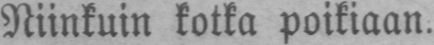Niinkuin kotka poikiaan.
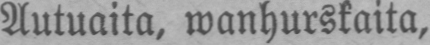Autuaita, wanhurskaita,
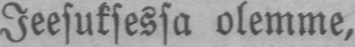Jeesuksessa olemme.
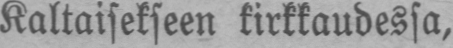Kaltaisekseen kirkkaudessa,
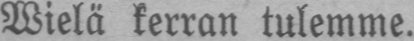Wielä kerran tulemme.
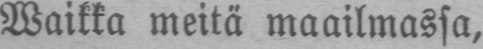Waikka meitä maailmassa.
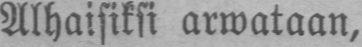Alhaisiksi arwataan,
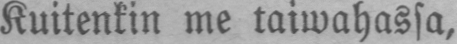Kuitenkin me taiwahassa.
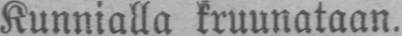Kunnialla kruunataan.
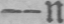—n.
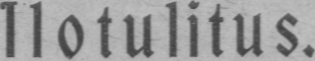Ilotulitus.
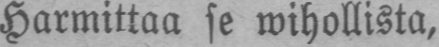Harmittaa se wihollista,
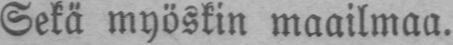Sekä myöskin maailmaa.
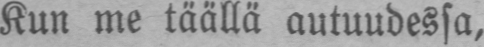Kun me täällä autuudessa.
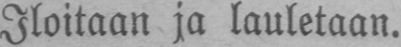Iloitaan ja lauletaan.
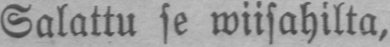Salattu se wiisahilta.
